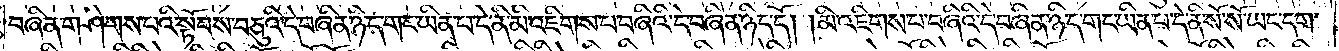བཞིན་གཤེགས་པའི་སྟོབས་བཅུའི་དེ་བཞིན་ཉིད་གང་ཡིན་པ་དེ་ནི་མི་འཇིགས་པ་བཞིའི་དེ་བཞིན་ཉིད་དོ། །མི་འཇིགས་པ་བཞིའི་དེ་བཞིན་ཉིད་གང་ཡིན་པ་དེ་ནི་སོ་སོ་ཡང་དག་
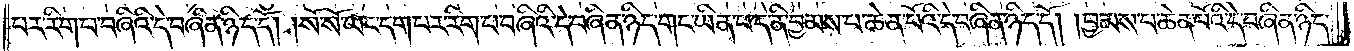པར་རིག་པ་བཞིའི་དེ་བཞིན་ཉིད་དོ། །སོ་སོ་ཡང་དག་པར་རིག་པ་བཞིའི་དེ་བཞིན་ཉིད་གང་ཡིན་པ་དེ་ནི་བྱམས་པ་ཆེན་པོའི་དེ་བཞིན་ཉིད་དོ། །བྱམས་པ་ཆེན་པོའི་དེ་བཞིན་ཉིད་
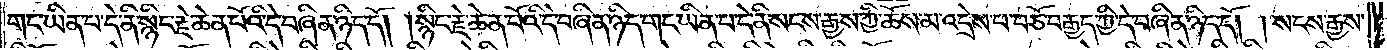གང་ཡིན་པ་དེ་ནི་སྙིང་རྗེ་ཆེན་པོའི་དེ་བཞིན་ཉིད་དོ། །སྙིང་རྗེ་ཆེན་པོའི་དེ་བཞིན་ཉིད་གང་ཡིན་པ་དེ་ནི་སངས་རྒྱས་ཀྱི་ཆོས་མ་འདྲེས་པ་བཅོ་བརྒྱད་ཀྱི་དེ་བཞིན་ཉིད་དོ། །སངས་རྒྱས་
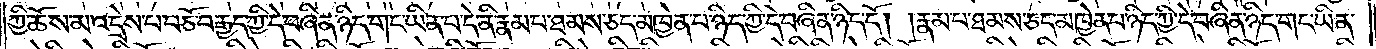ཀྱི་ཆོས་མ་འདྲེས་པ་བཅོ་བརྒྱད་ཀྱི་དེ་བཞིན་ཉིད་གང་ཡིན་པ་དེ་ནི་རྣམ་པ་ཐམས་ཅད་མཁྱེན་པ་ཉིད་ཀྱི་དེ་བཞིན་ཉིད་དོ། །རྣམ་པ་ཐམས་ཅད་མཁྱེན་པ་ཉིད་ཀྱི་དེ་བཞིན་ཉིད་གང་ཡིན་
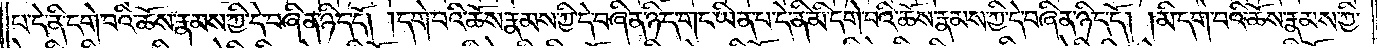པ་དེ་ནི་དགེ་བའི་ཆོས་རྣམས་ཀྱི་དེ་བཞིན་ཉིད་དོ། །དགེ་བའི་ཆོས་རྣམས་ཀྱི་དེ་བཞིན་ཉིད་གང་ཡིན་པ་དེ་ནི་མི་དགེ་བའི་ཆོས་རྣམས་ཀྱི་དེ་བཞིན་ཉིད་དོ། །མི་དགེ་བའི་ཆོས་རྣམས་ཀྱི་
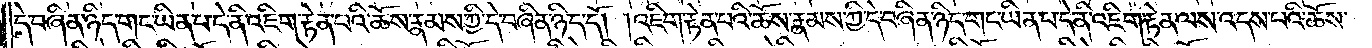དེ་བཞིན་ཉིད་གང་ཡིན་པ་དེ་ནི་འཇིག་རྟེན་པའི་ཆོས་རྣམས་ཀྱི་དེ་བཞིན་ཉིད་དོ། །འཇིག་རྟེན་པའི་ཆོས་རྣམས་ཀྱི་དེ་བཞིན་ཉིད་གང་ཡིན་པ་དེ་ནི་འཇིག་རྟེན་ལས་འདས་པའི་ཆོས་
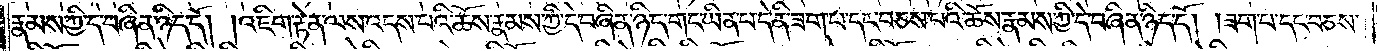རྣམས་ཀྱི་དེ་བཞིན་ཉིད་དོ། །འཇིག་རྟེན་ལས་འདས་པའི་ཆོས་རྣམས་ཀྱི་དེ་བཞིན་ཉིད་གང་ཡིན་པ་དེ་ནི་ཟག་པ་དང་བཅས་པའི་ཆོས་རྣམས་ཀྱི་དེ་བཞིན་ཉིད་དོ། །ཟག་པ་དང་བཅས་
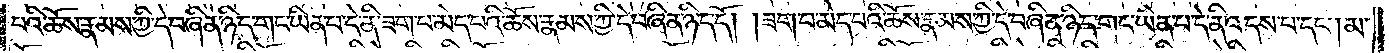པའི་ཆོས་རྣམས་ཀྱི་དེ་བཞིན་ཉིད་གང་ཡིན་པ་དེ་ནི་ཟག་པ་མེད་པའི་ཆོས་རྣམས་ཀྱི་དེ་བཞིན་ཉིད་དོ། །ཟག་པ་མེད་པའི་ཆོས་རྣམས་ཀྱི་དེ་བཞིན་ཉིད་གང་ཡིན་པ་དེ་ནི་འདས་པ་དང༌། མ་
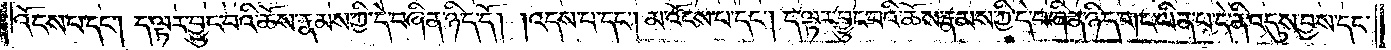འོངས་པ་དང༌། ད་ལྟར་བྱུང་བའི་ཆོས་རྣམས་ཀྱི་དེ་བཞིན་ཉིད་དོ། །འདས་པ་དང༌། མ་འོངས་པ་དང༌། ད་ལྟར་བྱུང་བའི་ཆོས་རྣམས་ཀྱི་དེ་བཞིན་ཉིད་གང་ཡིན་པ་དེ་ནི་འདུས་བྱས་དང་
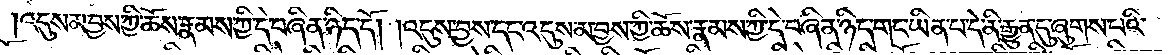འདུས་མ་བྱས་ཀྱི་ཆོས་རྣམས་ཀྱི་དེ་བཞིན་ཉིད་དོ། །འདུས་བྱས་དང་འདུས་མ་བྱས་ཀྱི་ཆོས་རྣམས་ཀྱི་དེ་བཞིན་ཉིད་གང་ཡིན་པ་དེ་ནི་རྒྱུན་དུ་ཞུགས་པའི་
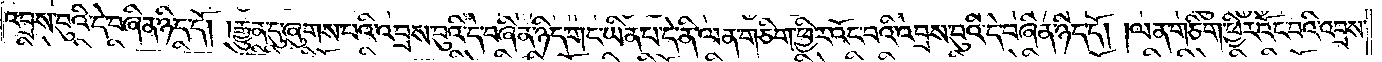འབྲས་བུའི་དེ་བཞིན་ཉིད་དོ། །རྒྱུན་དུ་ཞུགས་པའི་འབྲས་བུའི་དེ་བཞིན་ཉིད་གང་ཡིན་པ་དེ་ནི་ལན་ཅིག་ཕྱིར་འོང་བའི་འབྲས་བུའི་དེ་བཞིན་ཉིད་དོ། །ལན་ཅིག་ཕྱིར་འོང་བའི་འབྲས་
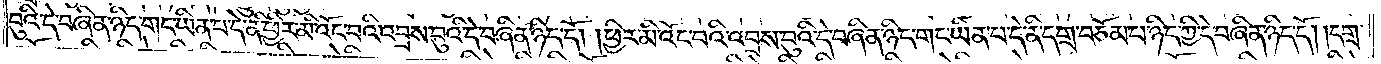བུའི་དེ་བཞིན་ཉིད་གང་ཡིན་པ་དེ་ནི་ཕྱིར་མི་འོང་བའི་འབྲས་བུའི་དེ་བཞིན་ཉིད་དོ། །ཕྱིར་མི་འོང་བའི་འབྲས་བུའི་དེ་བཞིན་ཉིད་གང་ཡིན་པ་དེ་ནི་དགྲ་བཅོམ་པ་ཉིད་ཀྱི་དེ་བཞིན་ཉིད་དོ། །དགྲ་
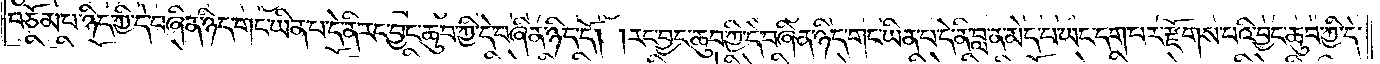བཅོམ་པ་ཉིད་ཀྱི་དེ་བཞིན་ཉིད་གང་ཡིན་པ་དེ་ནི་རང་བྱང་ཆུབ་ཀྱི་དེ་བཞིན་ཉིད་དོ། །རང་བྱང་ཆུབ་ཀྱི་དེ་བཞིན་ཉིད་གང་ཡིན་པ་དེ་ནི་བླ་ན་མེད་པ་ཡང་དག་པར་རྫོགས་པའི་བྱང་ཆུབ་ཀྱི་དེ་
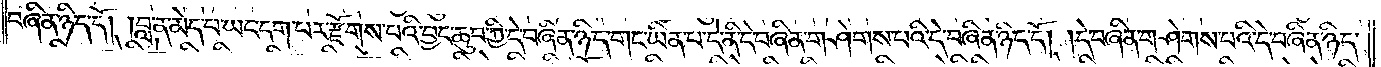བཞིན་ཉིད་དོ། །བླ་ན་མེད་པ་ཡང་དག་པར་རྫོགས་པའི་བྱང་ཆུབ་ཀྱི་དེ་བཞིན་ཉིད་གང་ཡིན་པ་དེ་ནི་དེ་བཞིན་གཤེགས་པའི་དེ་བཞིན་ཉིད་དོ། །དེ་བཞིན་གཤེགས་པའི་དེ་བཞིན་ཉིད་
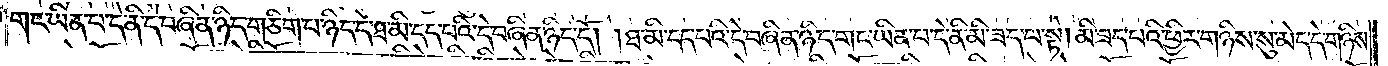གང་ཡིན་པ་དེ་ནི་དེ་བཞིན་ཉིད་གཅིག་པ་ཉིད་དེ་ཐ་མི་དད་པའི་དེ་བཞིན་ཉིད་དོ། །ཐ་མི་དད་པའི་དེ་བཞིན་ཉིད་གང་ཡིན་པ་དེ་མི་ཟད་པ་སྟེ། མི་ཟད་པའི་ཕྱིར་གཉིས་སུ་མེད་དེ་གཉིས་
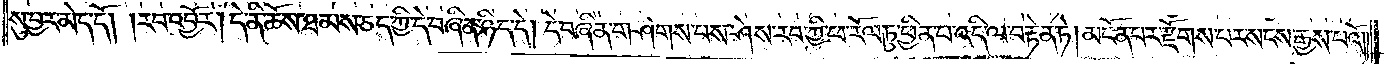སུ་བྱར་མེད་དོ། །རབ་འབྱོར། དེ་ནི་ཆོས་ཐམས་ཅད་ཀྱི་དེ་བཞིན་ཉིད་དེ། དེ་བཞིན་གཤེགས་པས་ཤེས་རབ་ཀྱི་ཕ་རོལ་ཏུ་ཕྱིན་པ་འདི་ལ་བརྟེན་ཏེ། མངོན་པར་རྫོགས་པར་སངས་རྒྱས་པའོ། །
